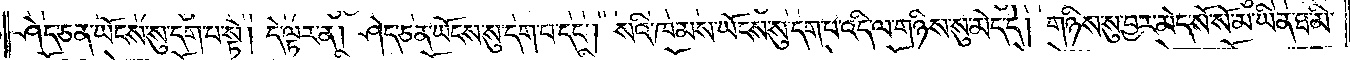ཤེད་ཅན་ཡོངས་སུ་དག་པ་སྟེ། དེ་ལྟར་ན། ཤེད་ཅན་ཡོངས་སུ་དག་པ་དང༌། སའི་ཁམས་ཡོངས་སུ་དག་པ་འདི་ལ་གཉིས་སུ་མེད་དེ། གཉིས་སུ་བྱར་མེད་སོ་སོ་མ་ཡིན་ཐ་མི་
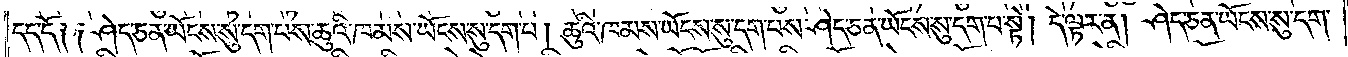དད་དོ༑ ༑ཤེད་ཅན་ཡོངས་སུ་དག་པས་ཆུའི་ཁམས་ཡོངས་སུ་དག་པ། ཆུའི་ཁམས་ཡོངས་སུ་དག་པས་ཤེད་ཅན་ཡོངས་སུ་དག་པ་སྟེ། དེ་ལྟར་ན། ཤེད་ཅན་ཡོངས་སུ་དག་
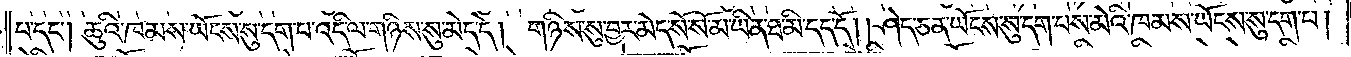པ་དང༌། ཆུའི་ཁམས་ཡོངས་སུ་དག་པ་འདི་ལ་གཉིས་སུ་མེད་དེ། གཉིས་སུ་བྱར་མེད་སོ་སོ་མ་ཡིན་ཐ་མི་དད་དོ། །ཤེད་ཅན་ཡོངས་སུ་དག་པས་མེའི་ཁམས་ཡོངས་སུ་དག་པ།
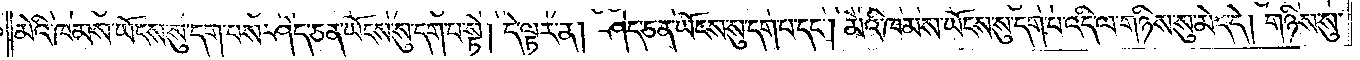མེའི་ཁམས་ཡོངས་སུ་དག་པས་ཤེད་ཅན་ཡོངས་སུ་དག་པ་སྟེ། དེ་ལྟར་ན། ཤེད་ཅན་ཡོངས་སུ་དག་པ་དང༌། མེའི་ཁམས་ཡོངས་སུ་དག་པ་འདི་ལ་གཉིས་སུ་མེད་དེ། གཉིས་སུ་
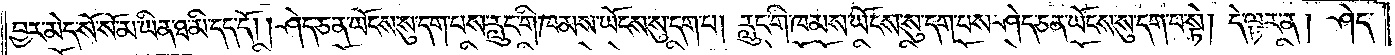བྱར་མེད་སོ་སོ་མ་ཡིན་ཐ་མི་དད་དོ། །ཤེད་ཅན་ཡོངས་སུ་དག་པས་རླུང་གི་ཁམས་ཡོངས་སུ་དག་པ། རླུང་གི་ཁམས་ཡོངས་སུ་དག་པས་ཤེད་ཅན་ཡོངས་སུ་དག་པ་སྟེ། དེ་ལྟར་ན། ཤེད་
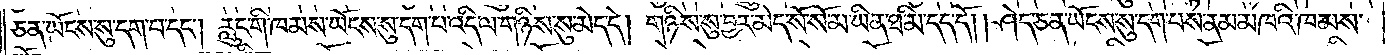ཅན་ཡོངས་སུ་དག་པ་དང༌། རླུང་གི་ཁམས་ཡོངས་སུ་དག་པ་འདི་ལ་གཉིས་སུ་མེད་དེ། གཉིས་སུ་བྱར་མེད་སོ་སོ་མ་ཡིན་ཐ་མི་དད་དོ། །ཤེད་ཅན་ཡོངས་སུ་དག་པས་ནམ་མཁའི་ཁམས་
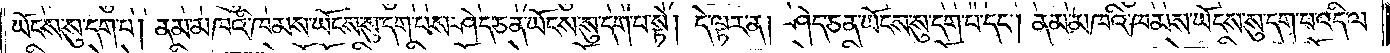ཡོངས་སུ་དག་པ། ནམ་མཁའི་ཁམས་ཡོངས་སུ་དག་པས་ཤེད་ཅན་ཡོངས་སུ་དག་པ་སྟེ། དེ་ལྟར་ན། ཤེད་ཅན་ཡོངས་སུ་དག་པ་དང༌། ནམ་མཁའི་ཁམས་ཡོངས་སུ་དག་པ་འདི་ལ་
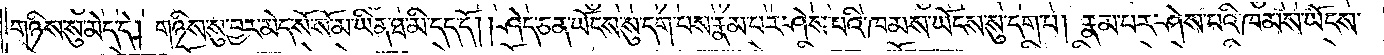གཉིས་སུ་མེད་དེ། གཉིས་སུ་བྱར་མེད་སོ་སོ་མ་ཡིན་ཐ་མི་དད་དོ། །ཤེད་ཅན་ཡོངས་སུ་དག་པས་རྣམ་པར་ཤེས་པའི་ཁམས་ཡོངས་སུ་དག་པ། རྣམ་པར་ཤེས་པའི་ཁམས་ཡོངས་
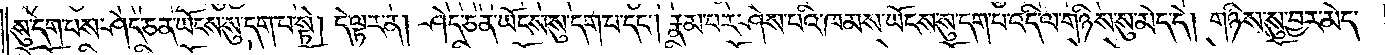སུ་དག་པས་ཤེད་ཅན་ཡོངས་སུ་དག་པ་སྟེ། དེ་ལྟར་ན། ཤེད་ཅན་ཡོངས་སུ་དག་པ་དང༌། རྣམ་པར་ཤེས་པའི་ཁམས་ཡོངས་སུ་དག་པ་འདི་ལ་གཉིས་སུ་མེད་དེ། གཉིས་སུ་བྱར་མེད་
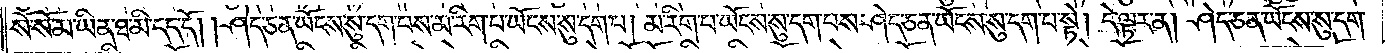སོ་སོ་མ་ཡིན་ཐ་མི་དད་དོ། །ཤེད་ཅན་ཡོངས་སུ་དག་པས་མ་རིག་པ་ཡོངས་སུ་དག་པ། མ་རིག་པ་ཡོངས་སུ་དག་པས་ཤེད་ཅན་ཡོངས་སུ་དག་པ་སྟེ། དེ་ལྟར་ན། ཤེད་ཅན་ཡོངས་སུ་དག་
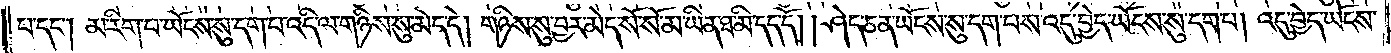པ་དང༌། མ་རིག་པ་ཡོངས་སུ་དག་པ་འདི་ལ་གཉིས་སུ་མེད་དེ། གཉིས་སུ་བྱར་མེད་བྱར་མེད་སོ་སོ་མ་ཡིན་ཐ་མི་དད་དོ། །ཤེད་ཅན་ཡོངས་སུ་དག་པས་འདུ་བྱེད་ཡོངས་སུ་དག་པ། འདུ་བྱེད་ཡོངས་
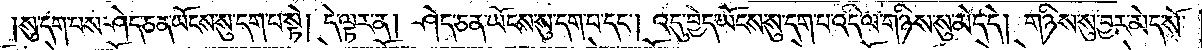སུ་དག་པས་ཤེད་ཅན་ཡོངས་སུ་དག་པ་སྟེ། དེ་ལྟར་ན། ཤེད་ཅན་ཡོངས་སུ་དག་པ་དང༌། འདུ་བྱེད་ཡོངས་སུ་དག་པ་འདི་ལ་གཉིས་སུ་མེད་དེ། གཉིས་སུ་བྱར་མེད་སོ་
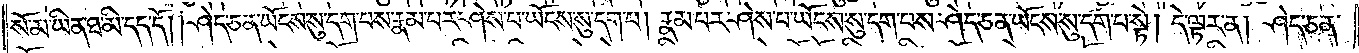སོ་མ་ཡིན་ཐ་མི་དད་དོ། །ཤེད་ཅན་ཡོངས་སུ་དག་པས་རྣམ་པར་ཤེས་པ་ཡོངས་སུ་དག་པ། རྣམ་པར་ཤེས་པ་ཡོངས་སུ་དག་པས་ཤེད་ཅན་ཡོངས་སུ་དག་པ་སྟེ། དེ་ལྟར་ན། ཤེད་ཅན་
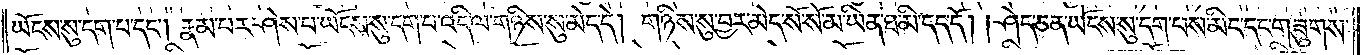ཡོངས་སུ་དག་པ་དང༌། རྣམ་པར་ཤེས་པ་ཡོངས་སུ་དག་པ་འདི་ལ་གཉིས་སུ་མེད་དེ། གཉིས་སུ་བྱར་མེད་སོ་སོ་མ་ཡིན་ཐ་མི་དད་དོ། །ཤེད་ཅན་ཡོངས་སུ་དག་པས་མིང་དང་གཟུགས་
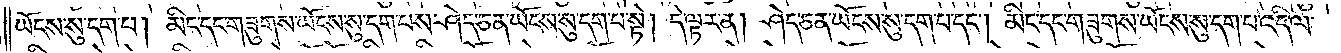ཡོངས་སུ་དག་པ། མིང་དང་གཟུགས་ཡོངས་སུ་དག་པས་ཤེད་ཅན་ཡོངས་སུ་དག་པ་སྟེ། དེ་ལྟར་ན། ཤེད་ཅན་ཡོངས་སུ་དག་པ་དང༌། མིང་དང་གཟུགས་ཡོངས་སུ་དག་པ་འདི་ལ་
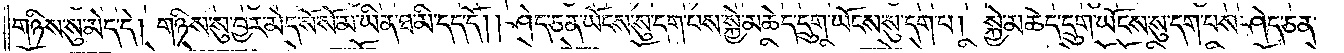གཉིས་སུ་མེད་དེ། གཉིས་སུ་བྱར་མེད་སོ་སོ་མ་ཡིན་ཐ་མི་དད་དོ། །ཤེད་ཅན་ཡོངས་སུ་དག་པས་སྐྱེ་མཆེད་དྲུག་ཡོངས་སུ་དག་པ། སྐྱེ་མཆེད་དྲུག་ཡོངས་སུ་དག་པས་ཤེད་ཅན་
